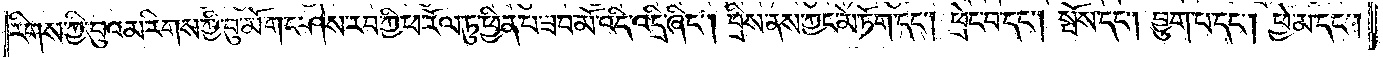རིགས་ཀྱི་བུའམ་རིགས་ཀྱི་བུ་མོ་གང་ཤེས་རབ་ཀྱི་ཕ་རོལ་ཏུ་ཕྱིན་པ་ཟབ་མོ་འདི་འདྲི་ཞིང༌། བྲིས་ནས་ཀྱང་མེ་ཏོག་དང༌། ཕྲེང་བ་དང༌། སྤོས་དང༌། བྱུག་པ་དང༌། ཕྱེ་མ་དང༌།
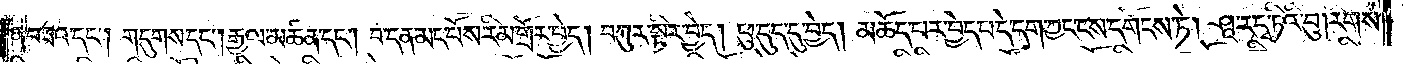ན་བཟའ་དང༌། གདུགས་དང༌། རྒྱལ་མཚན་དང༌། བ་དན་མང་པོས་རིམ་གྲོར་བྱེད། བཀུར་སྟིར་བྱེད། ཕུ་དུད་དུ་བྱེད། མཆོད་པར་བྱེད་པ་དེ་དག་ཀྱང་ངས་དགོངས་ཏེ། ཤཱ་ར་དྭ་ཏིའི་བུ། རིགས་
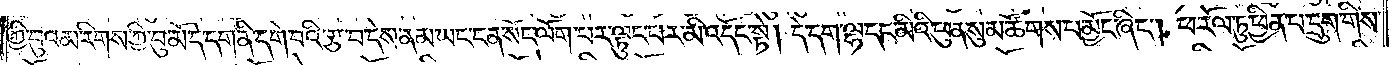ཀྱི་བུའམ་རིགས་ཀྱི་བུ་མོ་དེ་དག་ནི་དགེ་བའི་རྩ་བ་དེས་ནམ་ཡང་ངན་སོང་ལོག་པར་ལྟུང་བར་མི་འདོང་སྟེ། དེ་དག་ལྷ་དང་མིའི་ཕུན་སུམ་ཚོགས་པ་མྱོང་ཞིང༌། ཕ་རོལ་ཏུ་ཕྱིན་པ་དྲུག་གིས་
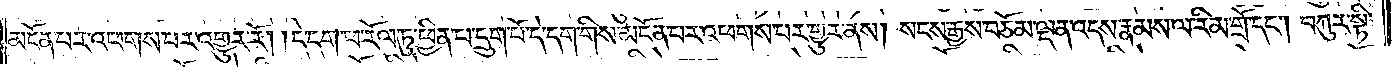མངོན་པར་འཕགས་པར་འགྱུར་རོ། །དེ་དག་ཕ་རོལ་ཏུ་ཕྱིན་པ་དྲུག་པོ་དེ་དག་གིས་མངོན་པར་འཕགས་པར་གྱུར་ནས། སངས་རྒྱས་བཅོམ་ལྡན་འདས་རྣམས་ལ་རིམ་གྲོ་དང༌། བཀུར་སྟི་
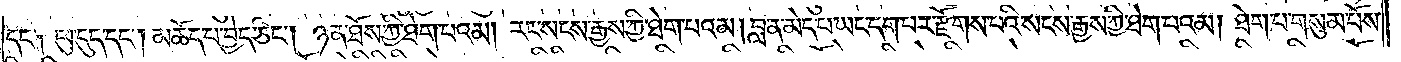དང༌། ཕུ་དུད་དང༌། མཆོད་པ་བྱེད་ཅིང༌། ཉན་ཐོས་ཀྱི་ཐེག་པའམ། རང་སངས་རྒྱས་ཀྱི་ཐེག་པའམ། བླ་ན་མེད་པ་ཡང་དག་པར་རྫོགས་པའི་སངས་རྒྱས་ཀྱི་ཐེག་པའམ། ཐེག་པ་གསུམ་པོས་
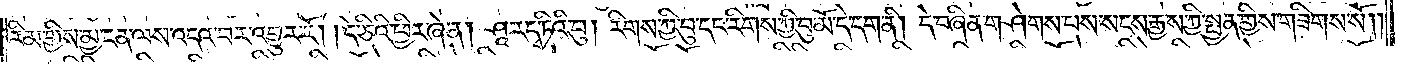རིམ་གྱིས་མྱ་ངན་ལས་འདའ་བར་འགྱུར་རོ། །དེ་ཅིའི་ཕྱིར་ཞེ་ན། ཤཱ་རདྭ་ཏིའི་བུ། རིགས་ཀྱི་བུ་དང་རིགས་ཀྱི་བུ་མོ་དེ་དག་ནི། དེ་བཞིན་གཤེགས་པས་སངས་རྒྱས་ཀྱི་སྤྱན་གྱིས་གཟིགས་སོ། །
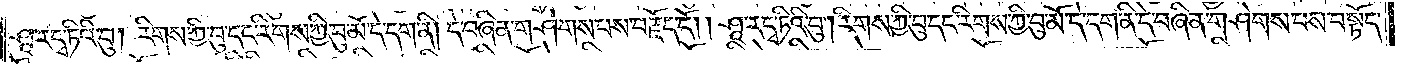ཤཱ་རདྭ་ཏིའི་བུ། རིགས་ཀྱི་བུ་དང་རིགས་ཀྱི་བུ་མོ་དེ་དག་ནི། དེ་བཞིན་གཤེགས་པས་བརྗོད་དོ། །ཤཱ་རདྭ་ཏིའི་བུ། རིགས་ཀྱི་བུ་དང་རིགས་ཀྱི་བུ་མོ་དེ་དག་ནི་དེ་བཞིན་གཤེགས་པས་བསྟོད་
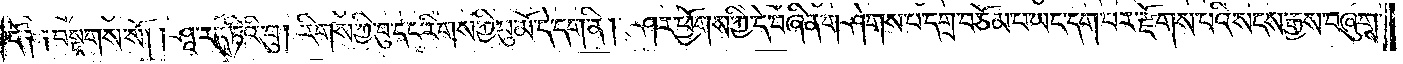དོ༑ ༑བསྔགས་སོ། །ཤཱ་ར་དྭ་ཏིའི་བུ། རིགས་ཀྱི་བུ་དང་རིགས་ཀྱི་བུ་མོ་དེ་དག་ནི། ཤར་ཕྱོགས་ཀྱི་དེ་བཞིན་གཤེགས་པ་དགྲ་བཅོམ་པ་ཡང་དག་པར་རྫོགས་པའི་སངས་རྒྱས་བཞུགས་
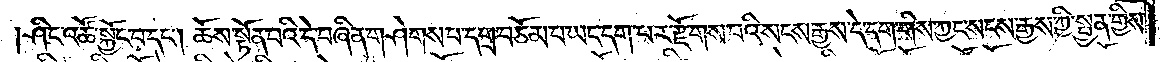ཤིང་འཚོ་སྐྱོང་བ་དང༌། ཆོས་སྟོན་པའི་དེ་བཞིན་གཤེགས་པ་དགྲ་བཅོམ་པ་ཡང་དག་པར་རྫོགས་པའི་སངས་རྒྱས་དེ་དག་གིས་ཀྱང་སངས་རྒྱས་ཀྱི་སྤྱན་གྱིས་
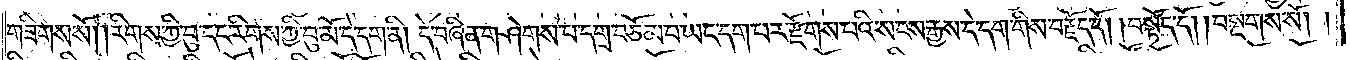གཟིགས་སོ། །རིགས་ཀྱི་བུ་དང་རིགས་ཀྱི་བུ་མོ་དེ་དག་ནི། དེ་བཞིན་གཤེགས་པ་དགྲ་བཅོམ་པ་ཡང་དག་པར་རྫོགས་པའི་སངས་རྒྱས་དེ་དག་གིས་བརྗོད་དོ། །བསྟོད་དོ། །བསྔགས་སོ། །
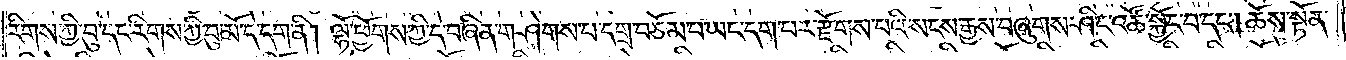རིགས་ཀྱི་བུ་དང་རིགས་ཀྱི་བུ་མོ་དེ་དག་ནི། ལྷོ་ཕྱོགས་ཀྱི་དེ་བཞིན་གཤེགས་པ་དགྲ་བཅོམ་པ་ཡང་དག་པར་རྫོགས་པའི་སངས་རྒྱས་བཞུགས་ཤིང་འཚོ་སྐྱོང་བ་དང༌། ཆོས་སྟོན་
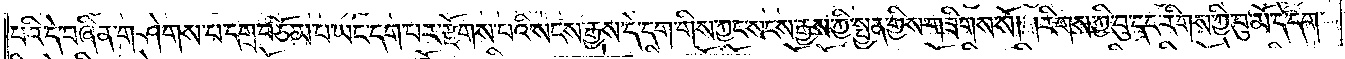པའི་དེ་བཞིན་གཤེགས་པ་དགྲ་བཅོམ་པ་ཡང་དག་པར་རྫོགས་པའི་སངས་རྒྱས་དེ་དག་གིས་ཀྱང་སངས་རྒྱས་ཀྱི་སྤྱན་གྱིས་གཟིགས་སོ། །རིགས་ཀྱི་བུ་དང་རིགས་ཀྱི་བུ་མོ་དེ་དག་
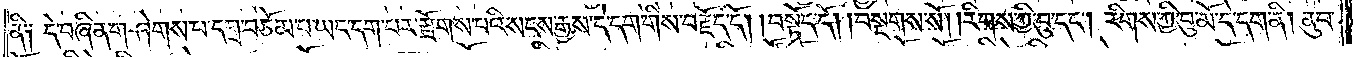ནི༑ དེ་བཞིན་གཤེགས་པ་དགྲ་བཅོམ་པ་ཡང་དག་པར་རྫོགས་པའི་སངས་རྒྱས་དེ་དག་གིས་བརྗོད་དོ། །བསྟོད་དོ། །བསྔགས་སོ། །རིགས་ཀྱི་བུ་དང༌། རིགས་ཀྱི་བུ་མོ་དེ་དག་ནི། ནུབ་
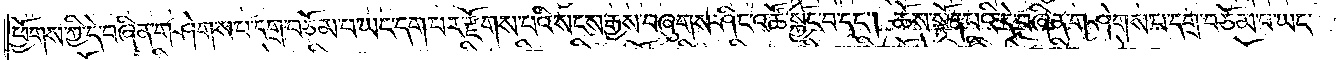ཕྱོགས་ཀྱི་དེ་བཞིན་གཤེགས་པ་དགྲ་བཅོམ་པ་ཡང་དག་པར་རྫོགས་པའི་སངས་རྒྱས་བཞུགས་ཤིང་འཚོ་སྐྱོང་བ་དང༌། ཆོས་སྟོན་པའི་དེ་བཞིན་གཤེགས་པ་དགྲ་བཅོམ་པ་ཡང་
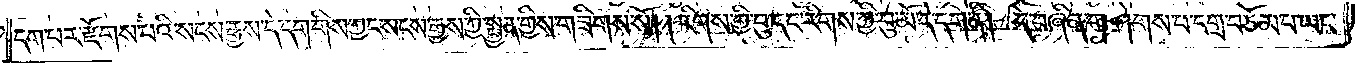དག་པར་རྫོགས་པའི་སངས་རྒྱས་དེ་དག་གིས་ཀྱང་སངས་རྒྱས་ཀྱི་སྤྱན་གྱིས་གཟིགས་སོ། །རིགས་ཀྱི་བུ་དང་རིགས་ཀྱི་བུ་མོ་དེ་དག་ནི། དེ་བཞིན་གཤེགས་པ་དགྲ་བཅོམ་པ་ཡང་
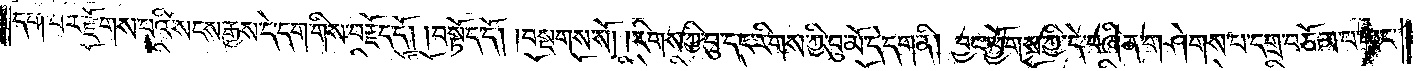དག་པར་རྫོགས་པའི་སངས་རྒྱས་དེ་དག་གིས་བརྗོད་དོ། །བསྟོད་དོ། །བསྔགས་སོ། །རིགས་ཀྱི་བུ་དང་རིགས་ཀྱི་བུ་མོ་དེ་དག་ནི། བྱང་ཕྱོགས་ཀྱི་དེ་བཞིན་གཤེགས་པ་དགྲ་བཅོམ་པ་ཡང་
